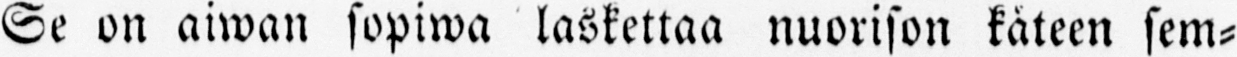Se on aiwan sopiwa laskettaa nuorison käteen sem-
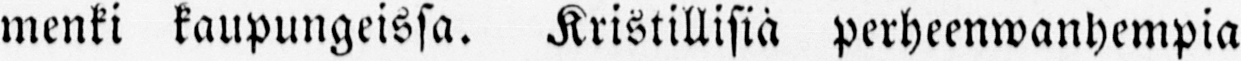menki kaupungeissa. Kristillisiä perheenwanhempia
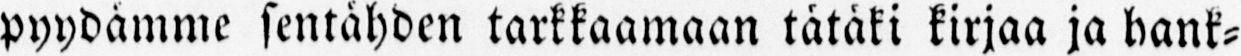pyydämme sentähden tarkkaamaan tätäki kirjaa ja hank-
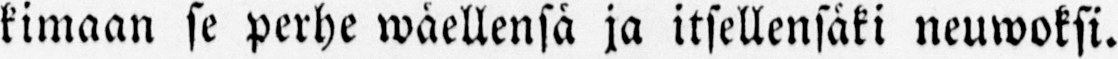kimaan se perhe wäellensä ja itsellensäki neuwoksi.
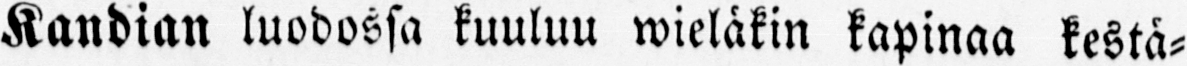Kandian luodossa kuuluu wieläkin kapinaa kestä-
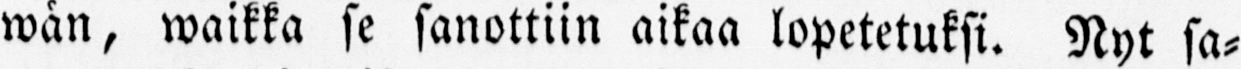wän, waikka se sanottiin aikaa lopetetuksi. Nyt sa-
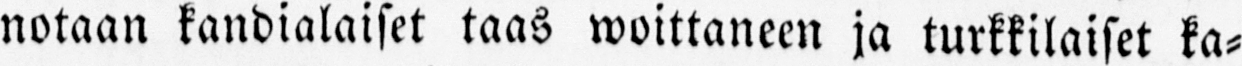notaan kandialaiset taas woittaneen ja turkkilaiset ka-
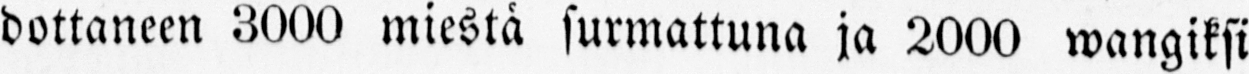dottaneen 3000 miestä surmattuna ja 2000 wangiksi
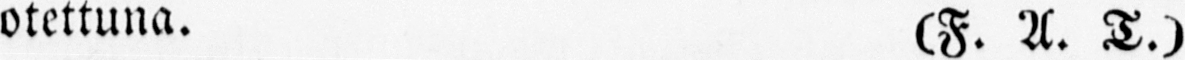otettuna. (F. A. T.)
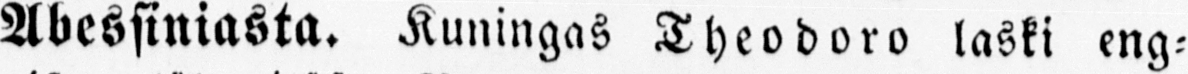Abessiniasta. Kuningas Theodoro laski eng-
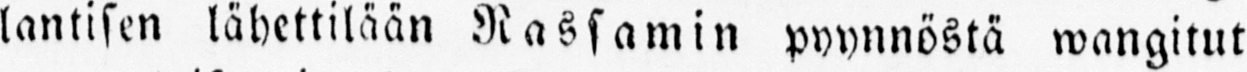lantisen lähettilään Rassamin pyynnöstä wangitut
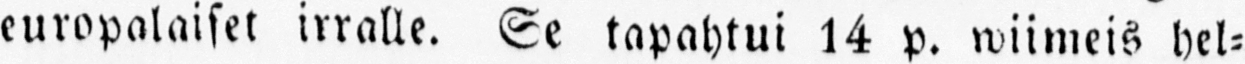europalaiset irralle. Se tapahtui 14 p. wiimeis hel-
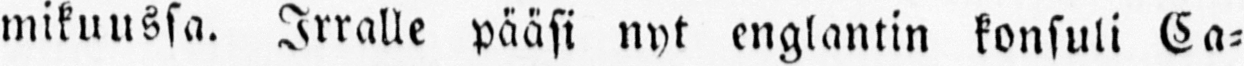mikuussa. Irralle pääsi nyt englantin konsuli Ca-
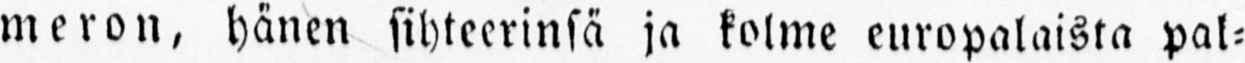meron, hänen sihteerinsä ja kolme europalaista pal-
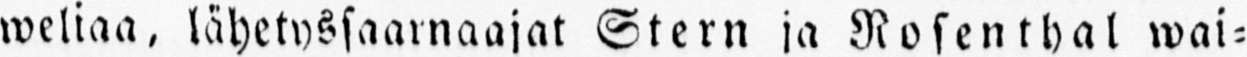weliaa, lähetyssaarnaajat Stern ja Rosenthal wai-
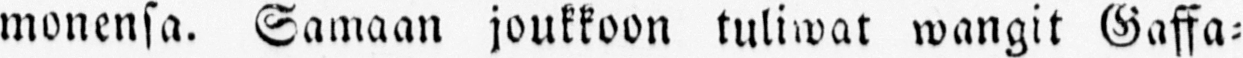monensa. Samaan joukkoon tuliwat wangit Gaffa-
